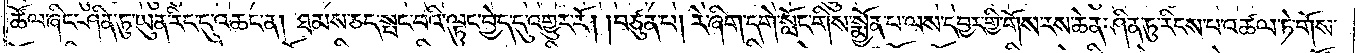ཚོལ་ཞིང་ཤིན་ཏུ་ཡུན་རིང་དུ་འཆང་ན། ཐམས་ཅད་སྤང་བའི་ལྟུང་བྱེད་དུ་འགྱུར་རོ། །བཙུན་པ། རེ་ཞིག་དགེ་སློང་གིས་སྨྱོན་པ་ལས་དབྱར་གྱི་གོས་རས་ཆེན་ཤིན་ཏུ་རིངས་པ་འཚལ་ཏེ་གོས་
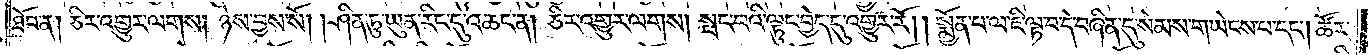ཐོབ་ན། ཅིར་འགྱུར་ལགས། ཉེས་བྱས་སོ། །ཤིན་ཏུ་ཡུན་རིང་དུ་འཆང་ན། ཅིར་འགྱུར་ལགས། སྤང་བའི་ལྟུང་བྱེད་དུ་འགྱུར་རོ། །སྨྱོན་པ་ལ་ཇི་ལྟ་བ་དེ་བཞིན་དུ་སེམས་གཡེངས་པ་དང༌། ཚོར་
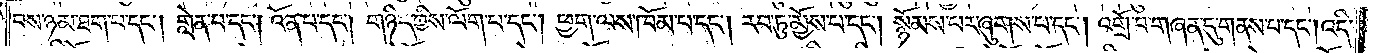བས་ཉམ་ཐག་པ་དང༌། གླེན་པ་དང༌། འོན་པ་དང༌། གཉིད་ཀྱིས་ལོག་པ་དང༌། ཕྱག་ལས་ཁོམ་པ་དང༌། རབ་ཏུ་མྱོས་པ་དང༌། སྙོམས་པར་ཞུགས་པ་དང༌། འགྲོ་བ་གཞན་དུ་གནས་པ་དང༌། འདི་
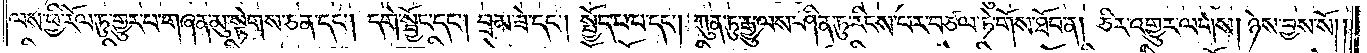ལས་ཕྱི་རོལ་ཏུ་གྱུར་པ་གཞན་མུ་སྟེགས་ཅན་དང༌། དགེ་སྦྱོང་དང༌། བྲམ་ཟེ་དང༌། སྤྱོད་པ་པ་དང༌། ཀུན་ཏུ་རྒྱུ་ལས་ཤིན་ཏུ་རིངས་པར་བཙལ་ཏེ་གོས་ཐོབ་ན། ཅིར་འགྱུར་ལགས། ཉེས་བྱས་སོ། །
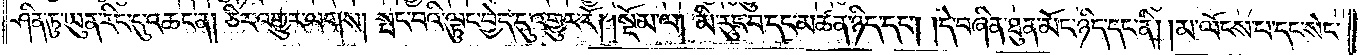ཤིན་ཏུ་ཡུན་རིང་དུ་འཆང་ན། ཅིར་འགྱུར་ལགས། སྤང་བའི་ལྟུང་བྱེད་དུ་འགྱུར་རོ། །སྡོམ་ལ། མི་རུང་བ་དང་མཚན་ཉིད་དང༌། །དེ་བཞིན་ཐུན་མོང་ཉིད་དང་ནི། །མ་ལོངས་པ་དང་སེང་
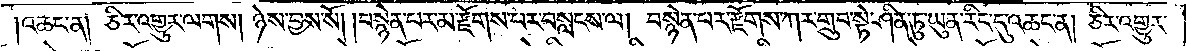།འཆང་ན། ཅིར་འགྱུར་ལགས། ཉེས་བྱས་སོ། །བསྙེན་པར་མ་རྫོགས་པར་བསླངས་ལ། བསྙེན་པར་རྫོགས་ཀར་གྲུབ་སྟེ་ཤིན་ཏུ་ཡུན་རིང་དུ་འཆང་ན། ཅིར་འགྱུར་
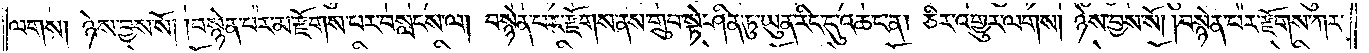ལགས། ཉེས་བྱས་སོ། །བསྙེན་པར་མ་རྫོགས་པར་བསླངས་ལ། བསྙེན་པར་རྫོགས་ནས་གྲུབ་སྟེ་ཤིན་ཏུ་ཡུན་རིང་དུ་འཆང་ན། ཅིར་འགྱུར་ལགས། ཉེས་བྱས་སོ། །བསྙེན་པར་རྫོགས་ཀར་
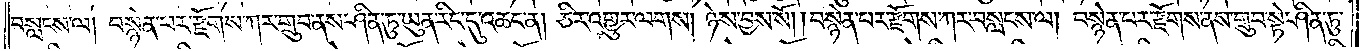བསླངས་ལ། བསྙེན་པར་རྫོགས་ཀར་གྲུབ་ནས་ཤིན་ཏུ་ཡུན་རིང་དུ་འཆང་ན། ཅིར་འགྱུར་ལགས། ཉེས་བྱས་སོ། །བསྙེན་པར་རྫོགས་ཀར་བསླངས་ལ། བསྙེན་པར་རྫོགས་ནས་གྲུབ་སྟེ་ཤིན་ཏུ་
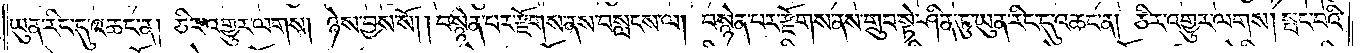ཡུན་རིང་དུ་འཆང་ན། ཅིར་འགྱུར་ལགས། ཉེས་བྱས་སོ། །བསྙེན་པར་རྫོགས་ནས་བསླངས་ལ། བསྙེན་པར་རྫོགས་ནས་གྲུབ་སྟེ་ཤིན་ཏུ་ཡུན་རིང་དུ་འཆང་ན། ཅིར་འགྱུར་ལགས། སྤང་བའི་
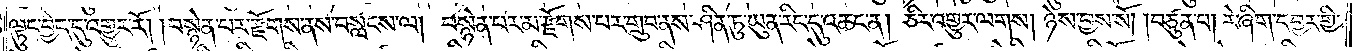ལྟུང་བྱེད་དུ་འགྱུར་རོ། །བསྙེན་པར་རྫོགས་ནས་བསླངས་ལ། བསྙེན་པར་མ་རྫོགས་པར་གྲུབ་ནས་ཤིན་ཏུ་ཡུན་རིང་དུ་འཆང་ན། ཅིར་འགྱུར་ལགས། ཉེས་བྱས་སོ། །བཙུན་པ། རེ་ཞིག་དབྱར་གྱི་
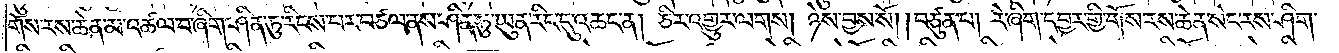གོས་རས་ཆེན་མ་འཚལ་བ་ཞིག་ཤིན་ཏུ་རིངས་པར་བཙལ་ནས་ཤིན་ཏུ་ཡུན་རིང་དུ་འཆང་ན། ཅིར་འགྱུར་ལགས། ཉེས་བྱས་སོ། །བཙུན་པ། རེ་ཞིག་དབྱར་གྱི་གོས་རས་ཆེན་སེང་རས་ཤིག་
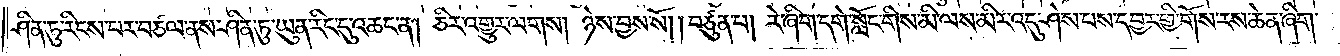ཤིན་ཏུ་རིངས་པར་བཙལ་ནས་ཤིན་ཏུ་ཡུན་རིང་དུ་འཆང་ན། ཅིར་འགྱུར་ལགས། ཉེས་བྱས་སོ། །བཙུན་པ། རེ་ཞིག་དགེ་སློང་གིས་མི་ལས་མིར་འདུ་ཤེས་པས་དབྱར་གྱི་གོས་རས་ཆེན་ཞིག་
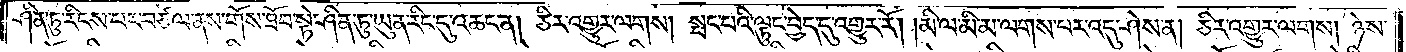ཤིན་ཏུ་རིངས་པར་བཙལ་ནས་གོས་ཐོབ་སྟེ་ཤིན་ཏུ་ཡུན་རིང་དུ་འཆང་ན། ཅིར་འགྱུར་ལགས། སྤང་བའི་ལྟུང་བྱེད་དུ་འགྱུར་རོ། །མི་ལ་མི་མ་ལགས་པར་འདུ་ཤེས་ན། ཅིར་འགྱུར་ལགས། ཉེས་
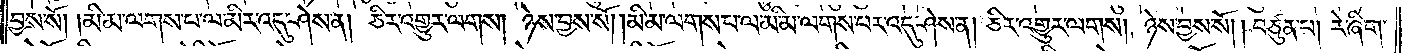བྱས་སོ། །མི་མ་ལགས་པ་ལ་མིར་འདུ་ཤེས་ན། ཅིར་འགྱུར་ལགས། ཉེས་བྱས་སོ། །མི་མ་ལགས་པ་ལ་མི་མ་ལགས་པར་འདུ་ཤེས་ན། ཅིར་འགྱུར་ལགས། ཉེས་བྱས་སོ། །བཙུན་པ། རེ་ཞིག་
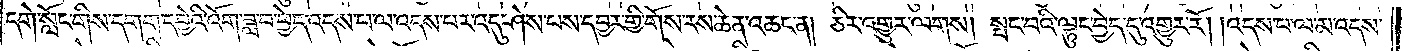དགེ་སློང་གིས་དགག་དབྱེའི་འོག་ཟླ་བ་ཕྱེད་འདས་པ་ལ་འདས་པར་འདུ་ཤེས་པས་དབྱར་གྱི་གོས་རས་ཆེན་འཆང་ན། ཅིར་འགྱུར་ལགས། སྤང་བའི་ལྟུང་བྱེད་དུ་འགྱུར་རོ། །འདས་པ་ལ་མ་འདས་
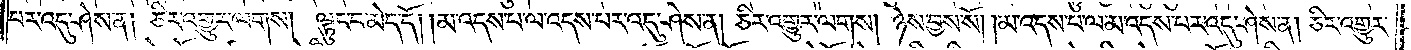པར་འདུ་ཤེས་ན། ཅིར་འགྱུར་ལགས། ལྟུང་བ་མེད་དོ། །མ་འདས་པ་ལ་འདས་པར་འདུ་ཤེས་ན། ཅིར་འགྱུར་ལགས། ཉེས་བྱས་སོ། །མ་འདས་པ་ལ་མ་འདས་པར་འདུ་ཤེས་ན། ཅིར་འགྱུར་
